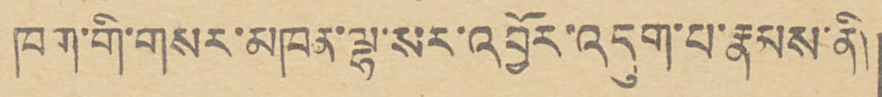ཁག་གི་གསར་མཁན་ལྷ་སར་འབྱོར་འདུག་པ་རྣམས་ནི།
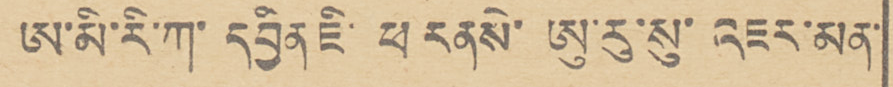ཨ་མི་རི་ཀ་ དབྱིན ཇི་ ཕ རནསེ་ ཨུ་རུ་སུ་ འཇར་མན་
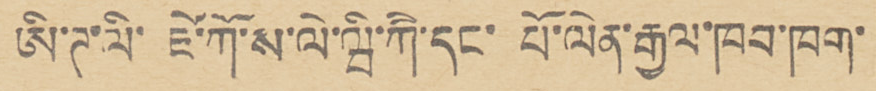ཨི་ཊ་ལི་ ཛེ་ཀོ་ས་ལེ་ཝི་ཀཻ་དང་ པོ་ལེན་རྒྱལ་ཁབ་ཁག་
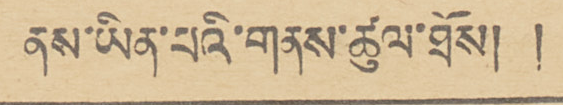ནས་ཡིན་པའི་གནས་ཚུལ་ཐོས། །
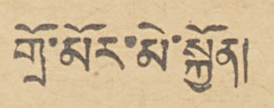གྲོ་མོར་མེ་སྐྱོན།
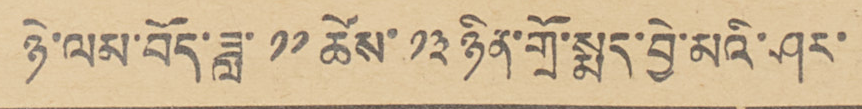ཉེ་ལམ་བོད་ཟླ་ ༡༡ ཚེས་ ༡༣ ཉིན་གྲོ་སྨད་བྱེ་མའི་ཤར་
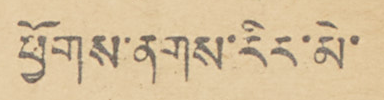ཕྱོགས་ནགས་རིར་མེ་
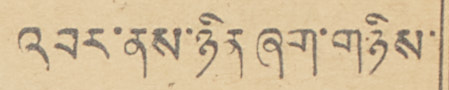འབར་ནས་ཉིན ཞག་གཉིས་
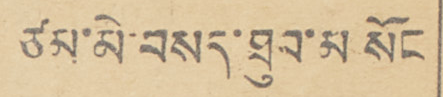ཙམ་མེ་བསད་ཐུབ་མ སོང
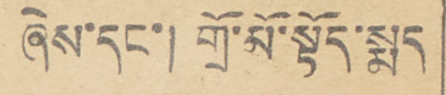ཞེས་དང་། གྲོ་མོ་སྟོད་སྨད
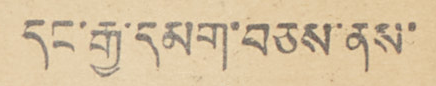དང་རྒྱ་དམག་བཅས་ནས་
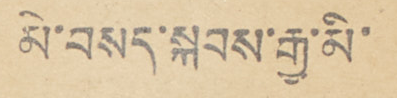མེ་བསད་སྐབས་རྒྱ་མི་
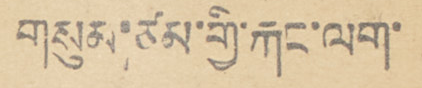གསུམ་ཙམ་གྱི་རྐང་ལག་
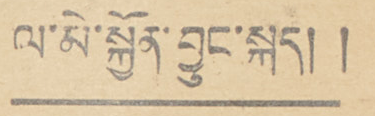ལ་མེ་སྐྱོན་བྱུང་སྐད། །
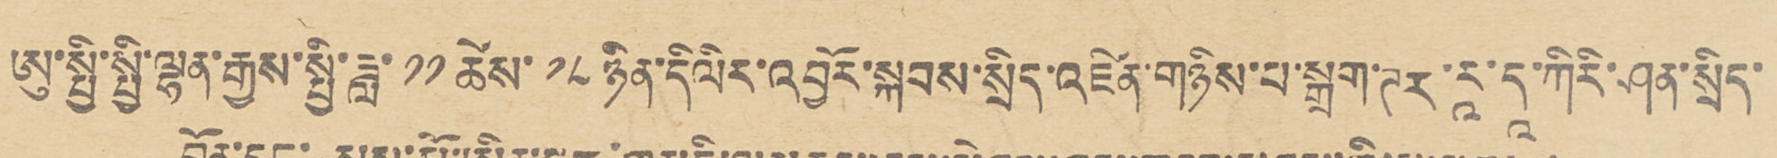ཨུ་སྤྱི་སྤྱི་ལྷན་རྒྱས་སྤྱི་ཟླ་ ༡༡ ཚེས་ ༡༨ ཉིན་དི ལིར་འབྱོར་སྐབས་སྲིད་འཛིན་གཉིས་པ་སྒྲག་ཊར་རཱ་དཱ་ཀིརི་ཤན་སྲིད་
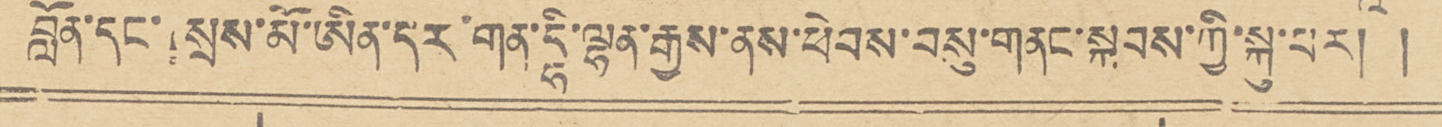བློན་དང་། སྲས་མོ་ཨིན་དར་གན་དྷི་ལྷན་རྒྱས་ནས་ཕེབས་བསུ་གནང་སྐབས་ཀྱི་སྐུ་པར། །
